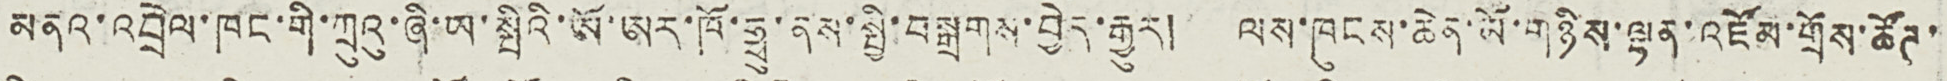མནའ་འབྲེལ་ཁང་གི་ཀྲུའུ་ཞི་ཡ་སྤིའི་ཨོ་ཨར་ཁོ་ཧྥུ་ནས་སྤྱི་བསྒྲགས་བྱེད་རྒྱུར། ལས་ཁུངས་ཆེན་མོ་གཉིས་ལྷན་འཛོམ་གྲོས་ཚོཊ་
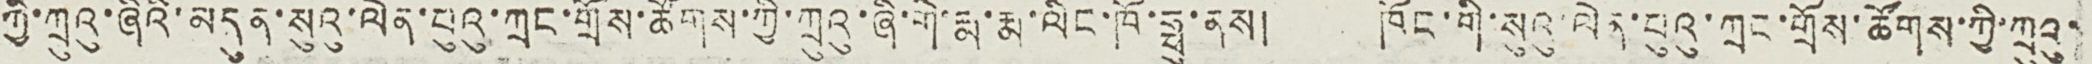ཀྱི་ཀྲུའུ་ཞིའི་མདུན་སུའུ་ལེན་པུའུ་ཀྲང་གྲོས་ཚོགས་ཀྱི་ཀྲུའུ་ཞི་གེ་རྨ་རྨ་ལིང་ཁོ་ཧྥུ་ནས། ཁོང་གི་སུའུ་ལེན་པུའུ་ཀྲང་གྲོས་ཚོགས་ཀྱི་ཀྲུའུ་
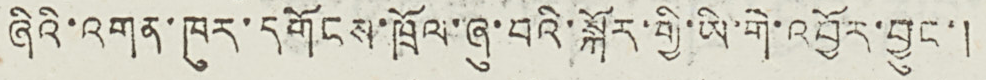ཞིའི་འགན་ཁུར་དགོངས་ཁྲོལ་ཞུ་བའི་སྐོར་གྱི་ཡི་གེ་འབྱོར་བྱུང་།
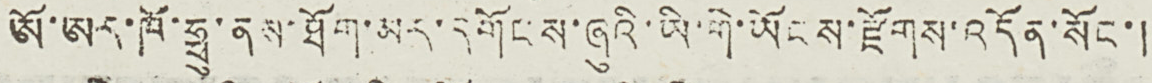ཨོ་ཨར་ཁོ་ཧྥུ་ནས་ཐོག་མར་དགོངས་ཞུའི་ཡི་གེ་ཡོངས་རྫོགས་འདོན་སོང་།
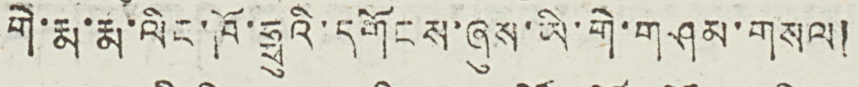གེ་རྨ་རྨ་ལིང་ཁོ་ཧྥུའི་དགོངས་ཞུས་ཡི་གེ་གཤམ་གསལ།
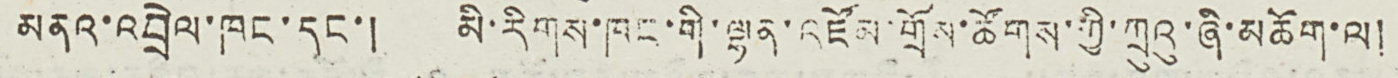མནའ་འབྲེལ་ཁང་དང་། མི་རིགས་ཁང་གི་ལྷན་འཛོམ་གྲོས་ཚོགས་ཀྱི་ཀྲུའུ་ཞི་མཆོག་ལ།
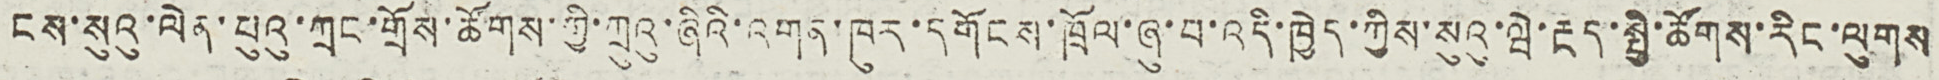ངས་སུའུ་ལེན་པུའུ་ཀྲང་གྲོས་ཚོགས་ཀྱི་ཀྲུའུ་ཞིའི་འགན་ཁུར་དགོངས་ཁྲོལ་ཞུ་བ་འདི་ཁྱེད་ཀྱིས་སུའུ་ཝེ་རྔད་སྤྱི་ཚོགས་རིང་ལུགས
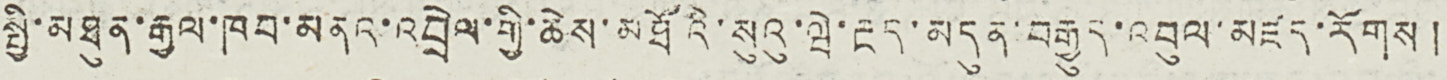སྤྱི་མཐུན་རྒྱལ་ཁབ་མནའ་འབྲེལ་གྱི་ཆེས་མཐོའི་སུའུ་ཝེ་རྔད་མདུན་བརྒྱུད་འབུལ་མཛད་རོགས།
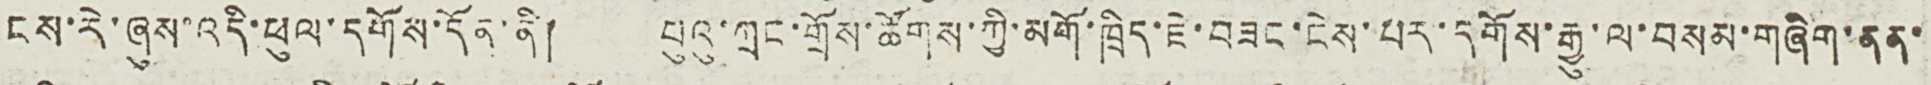ངས་རེ་ཞུས་འདི་ཕུལ་དགོས་དོན་ནི། པུའུ་ཀྲང་གྲོས་ཚོགས་ཀྱི་མགོ་ཁྲིད་ཇེ་བཟང་ངེས་པར་དགོས་རྒྱུ་ལ་བསམ་གཞིག་ནན་
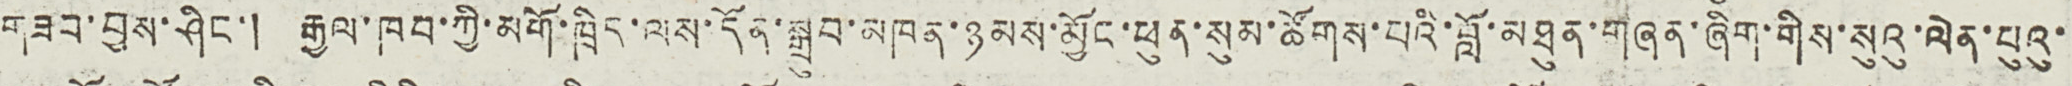གཟབ་བྱས་ཤིང་། རྒྱལ་ཁབ་ཀྱི་མགོ་ཁྲིད་ལས་དོན་སྒྲུབ་མཁན་ཉམས་མྱོང་ཕུན་སུམ་ཚོགས་པའི་བློ་མཐུན་གཞན་ཞིག་གིས་སུའུ་ལེན་པུའུ་
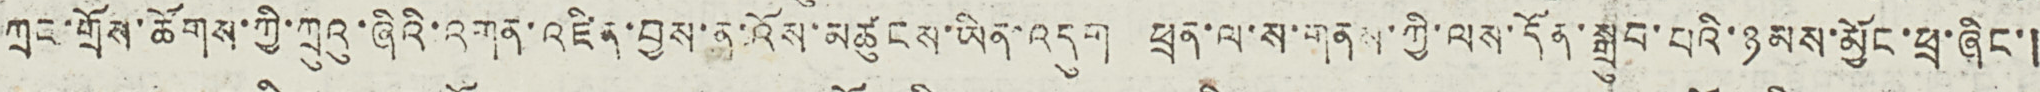ཀྲང་གྲོས་ཚོགས་ཀྱི་ཀྲུའུ་ཞིའི་འགན་འཛིན་བྱས་ན་འོས་མཚུངས་ཡིན་འདུག ཕྲན་ལ་ས་གནས་ཀྱི་ལས་དོན་སྒྲུབ་པའི་ཉམས་མྱོང་ཕྲ་ཞིང་།
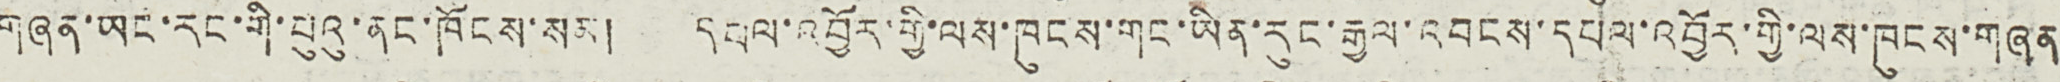གཞན་ཡང་རང་གི་པུའུ་ནང་ཁོངས་སམ། དཔལ་འབྱོར་གྱི་ལས་ཁུངས་གང་ཡིན་རུང་རྒྱལ་འབངས་དཔལ་འབྱོར་གྱི་ལས་ཁུངས་གཞན
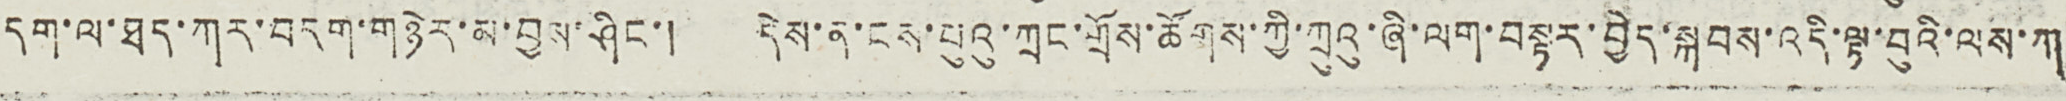དག་ལ་ཐད་ཀར་བདག་གཉེར་མ་བྱས་ཤིང་། དེས་ན་ངས་པུའུ་ཀྲང་གྲོས་ཚོགས་ཀྱི་ཀྲུའུ་ཞི་ལག་བསྟར་བྱེད་སྐབས་འདི་ལྟ་བུའི་ལས་ཀ
